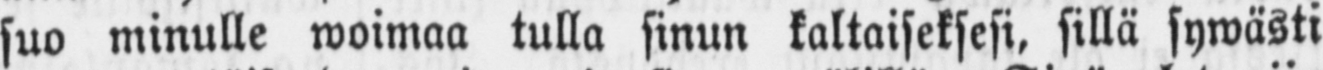suo minulle woimaa tulla sinun kaltaiseksesi, sillä sywästi
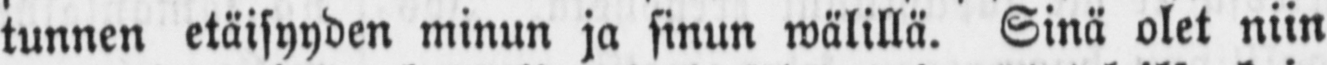tunnen etäisyyden minun ja sinun wälillä. Sinä olet niin
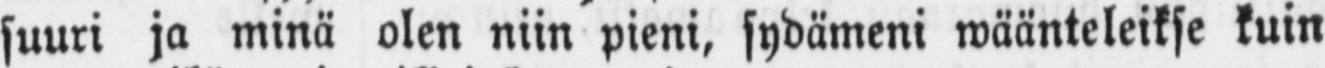suuri ja minä olen niin pieni, sydämeni wäänteleikse kuin
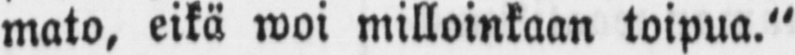mato, eikä woi milloinkaan toipua."
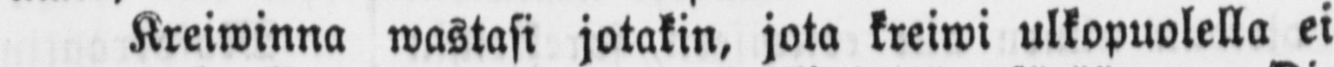Kreiwinna wastasi jotakin, jota kreiwi ulkopuolella ei
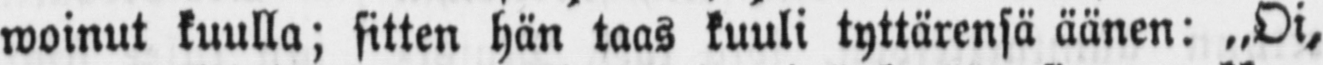woinut kuulla; sitten hän taas kuuli tyttärensä äänen: „Oi,
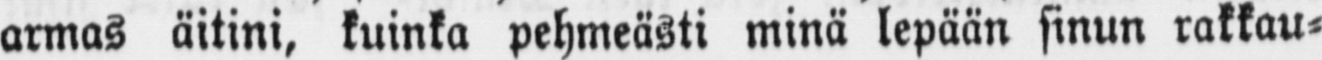armas äitini, kuinka pehmeästi minä lepään sinun rakkau-
